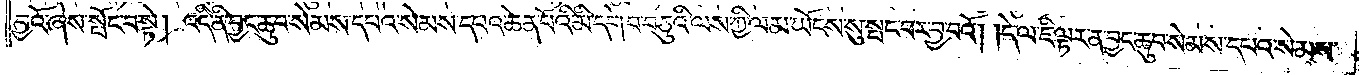བྱའོ་ཞེས་སྤོང་བ་སྟེ། འདི་ནི་བྱང་ཆུབ་སེམས་དཔའ་སེམས་དཔའ་ཆེན་པོའི་མི་དགེ་བ་བཅུའི་ལས་ཀྱི་ལམ་ཡོངས་སུ་སྤང་བར་བྱ་བའོ། །དེ་ལ་ཇི་ལྟར་ན་བྱང་ཆུབ་སེམས་དཔའ་སེམས་
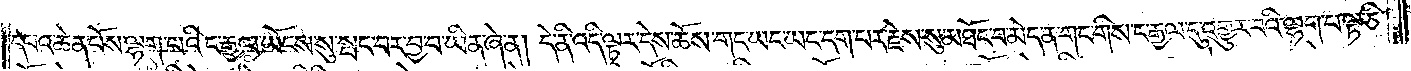དཔའ་ཆེན་པོས་ལྷག་པའི་ང་རྒྱལ་ཡོངས་སུ་སྤང་བར་བྱ་བ་ཡིན་ཞེ་ན། དེ་ནི་འདི་ལྟར་དེས་ཆོས་གང་ཡང་ཡང་དག་པར་རྗེས་སུ་མཐོང་བ་མེད་ན་གང་གིས་ང་རྒྱལ་དུ་འགྱུར་བའི་ལྷག་པ་ལྟ་ཅི་
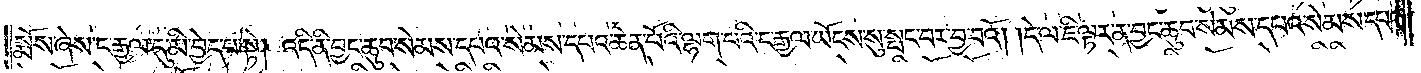སྨོས་ཞེས་ང་རྒྱལ་དུ་མི་བྱེད་པ་སྟེ། འདི་ནི་བྱང་ཆུབ་སེམས་དཔའ་སེམས་དཔའ་ཆེན་པོའི་ལྷག་པའི་ང་རྒྱལ་ཡོངས་སུ་སྤང་བར་བྱ་བའོ། །དེ་ལ་ཇི་ལྟར་ན་བྱང་ཆུབ་སེམས་དཔའ་སེམས་དཔའ་
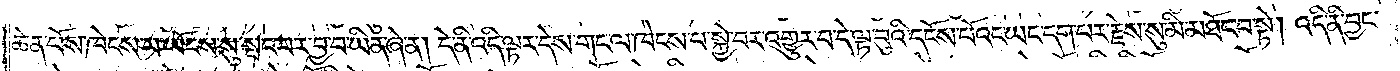ཆེན་པོས་ཁེངས་པ་ཡོངས་སུ་སྤང་བར་བྱ་བ་ཡིན་ཞེ་ན། དེ་ནི་འདི་ལྟར་དེས་གང་ལ་ཁེངས་པ་སྐྱེ་བར་འགྱུར་བ་དེ་ལྟ་བུའི་དངོས་པོའང་ཡང་དག་པར་རྗེས་སུ་མི་མཐོང་བ་སྟེ། འདི་ནི་བྱང་
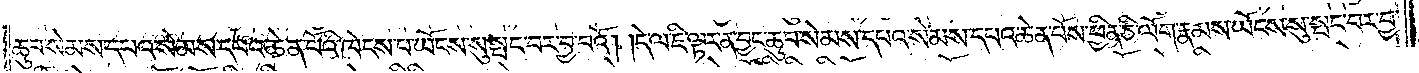ཆུབ་སེམས་དཔའ་སེམས་དཔའ་ཆེན་པོའི་ཁེངས་པ་ཡོངས་སུ་སྤང་བར་བྱ་བའོ། །དེ་ལ་ཇི་ལྟར་ན་བྱང་ཆུབ་སེམས་དཔའ་སེམས་དཔའ་ཆེན་པོས་ཕྱིན་ཅི་ལོག་རྣམས་ཡོངས་སུ་སྤང་བར་བྱ་
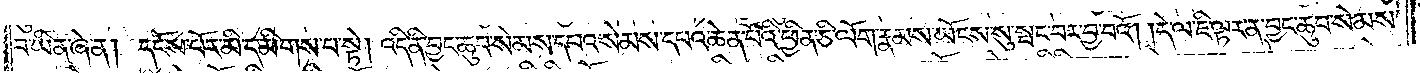བ་ཡིན་ཞེ་ན། དངོས་པོར་མི་དམིགས་པ་སྟེ། འདི་ནི་བྱང་ཆུབ་སེམས་དཔའ་སེམས་དཔའ་ཆེན་པོའི་ཕྱིན་ཅི་ལོག་རྣམས་ཡོངས་སུ་སྤང་བར་བྱ་བའོ། །དེ་ལ་ཇི་ལྟར་ན་བྱང་ཆུབ་སེམས་
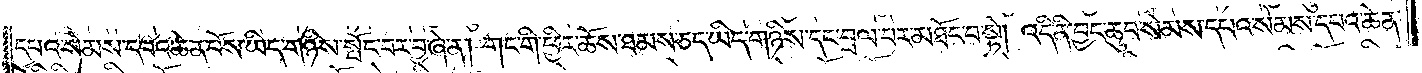དཔའ་སེམས་དཔའ་ཆེན་པོས་ཡིད་གཉིས་སྤོང་བར་བྱ་ཞེ་ན། གང་གི་ཕྱིར་ཆོས་ཐམས་ཅད་ཡིད་གཉིས་དང་བྲལ་བར་མཐོང་བ་སྟེ། འདི་ནི་བྱང་ཆུབ་སེམས་དཔའ་སེམས་དཔའ་ཆེན་
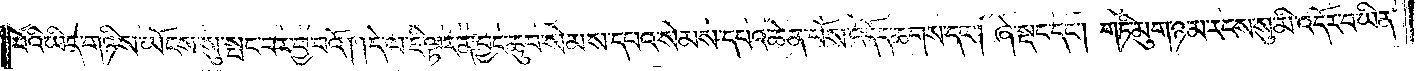པོའི་ཡིད་གཉིས་ཡོངས་སུ་སྤང་བར་བྱ་བའོ། །དེ་ལ་ཇི་ལྟར་ན་བྱང་ཆུབ་སེམས་དཔའ་སེམས་དཔའ་ཆོས་པོས་འདོད་ཆགས་དང༌། ཞེ་སྡང་དང༌། གཏི་མུག་ཉམ་རངས་སུ་མི་འདོར་བ་ཡིན་
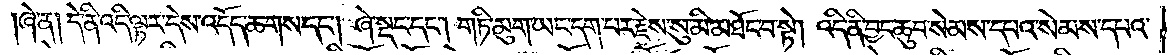ཞེ་ན། དེ་ནི་འདི་ལྟར་དེས་འདོད་ཆགས་དང༌། ཞེ་སྡང་དང༌། གཏི་མུག་ཡང་དག་པར་རྗེས་སུ་མི་མཐོང་བ་སྟེ། འདི་ནི་བྱང་ཆུབ་སེམས་དཔའ་སེམས་དཔའ་
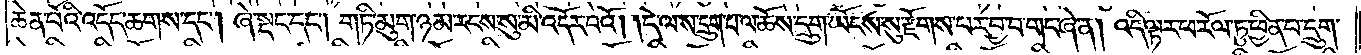ཆེན་པོའི་འདོད་ཆགས་དང༌། ཞེ་སྡང་དང༌། གཏི་མུག་ཉམ་རངས་སུ་མི་འདོར་བའོ། །དེ་ལས་དྲུག་ལ་ཆོས་དྲུག་ཡོངས་སུ་རྫོགས་པར་བྱ་བ་གང་ཞེ་ན། འདི་ལྟར་ཕ་རོལ་ཏུ་ཕྱིན་པ་དྲུག་
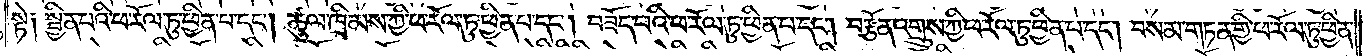སྟེ༑ སྦྱིན་པའི་ཕ་རོལ་ཏུ་ཕྱིན་པ་དང༌། ཚུལ་ཁྲིམས་ཀྱི་ཕ་རོལ་ཏུ་ཕྱིན་པ་དང༌། བཟོད་པའི་ཕ་རོལ་ཏུ་ཕྱིན་པ་དང༌། བརྩོན་འགྲུས་ཀྱི་ཕ་རོལ་ཏུ་ཕྱིན་པ་དང༌། བསམ་གཏན་གྱི་ཕ་རོལ་ཏུ་ཕྱིན་
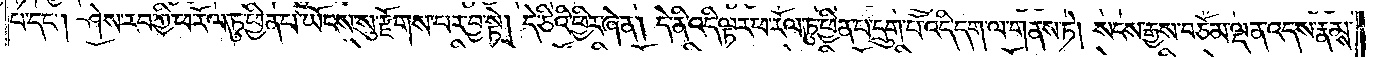པ་དང༌། ཤེས་རབ་ཀྱི་ཕ་རོལ་ཏུ་ཕྱིན་པ་ཡོངས་སུ་རྫོགས་པར་བྱ་སྟེ། དེ་ཅིའི་ཕྱིར་ཞེ་ན། དེ་ནི་འདི་ལྟར་ཕ་རོལ་ཏུ་ཕྱིན་པ་དྲུག་པོ་འདི་དག་ལ་གནས་ཏེ། སངས་རྒྱས་བཅོམ་ལྡན་འདས་རྣམས་
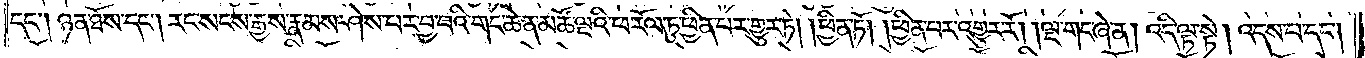དང༌། ཉན་ཐོས་དང༌། རང་སངས་རྒྱས་རྣམས་ཤེས་པར་བྱ་བའི་གང་ཆེན་མཚོ་ལྔའི་ཕ་རོལ་ཏུ་ཕྱིན་པར་གྱུར་ཏོ། །ཕྱིན་ཏོ། །ཕྱིན་པར་འགྱུར་རོ། །ལྔ་གང་ཞེ་ན། འདི་ལྟ་སྟེ། འདས་པ་དང༌།
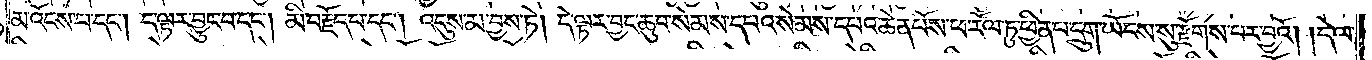མ་འོངས་པ་དང༌། ད་ལྟར་བྱུང་བ་དང༌། མི་བརྗོད་པ་དང༌། འདུས་མ་བྱས་ཏེ། དེ་ལྟར་བྱང་ཆུབ་སེམས་དཔའ་སེམས་དཔའ་ཆེན་པོས་ཕ་རོལ་ཏུ་ཕྱིན་པ་དྲུག་ཡོངས་སུ་རྫོགས་པར་བྱའོ། །དེ་ལ་
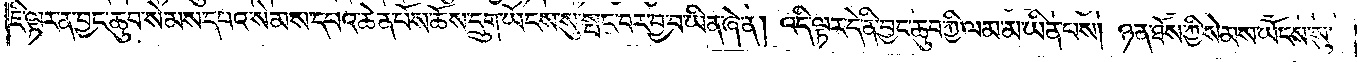ཇི་ལྟར་ན་བྱང་ཆུབ་སེམས་དཔའ་སེམས་དཔའ་ཆེན་པོས་ཆོས་དྲུག་ཡོངས་སུ་སྤང་བར་བྱ་བ་ཡིན་ཞེ་ན། འདི་ལྟར་དེ་ནི་བྱང་ཆུབ་ཀྱི་ལམ་མ་ཡིན་པས། ཉན་ཐོས་ཀྱི་སེམས་ཡོངས་སུ་
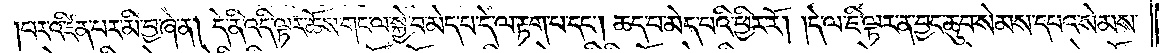པར་འཛིན་པར་མི་བྱ་ཞེ་ན། དེ་ནི་འདི་ལྟར་ཆོས་གང་ལ་སྐྱེ་བ་མེད་པ་དེ་ལ་རྟག་པ་དང༌། ཆད་པ་མེད་པའི་ཕྱིར་རོ། །དེ་ལ་ཇི་ལྟར་ན་བྱང་ཆུབ་སེམས་དཔའ་སེམས་
